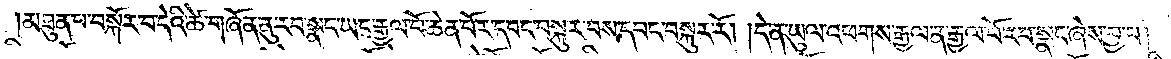མཐུན་པ་བསྐོར་བ་དེའི་ཚེ་གཞོན་ནུ་རབ་སྣང་ཡང་རྒྱལ་པོ་ཆེན་པོར་དབང་བསྐུར་བས་དབང་བསྐུར་རོ། །དེ་ན་ཡུལ་འཕགས་རྒྱལ་ན་རྒྱལ་པོ་རབ་སྣང་ཞེས་བྱ་བ།
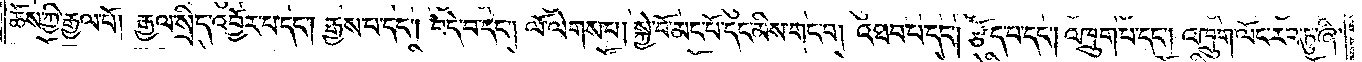ཆོས་ཀྱི་རྒྱལ་པོ། རྒྱལ་སྲིད་འབྱོར་པ་དང༌། རྒྱས་པ་དང༌། བདེ་བ་དང༌། ལོ་ལེགས་པ། སྐྱེ་བོ་མང་པོ་དང་མིས་གང་བ། འཐབ་པ་དང༌། རྩོད་པ་དང༌། འཁྲུག་པ་དང༌། འཁྲུག་ལོང་རབ་ཏུ་ཞི་
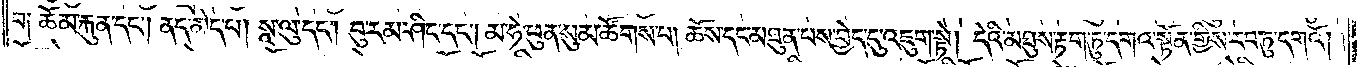བ༑ ཆོམ་རྐུན་དང༌། ནད་མེད་པ། སཱ་ལུ་དང༌། བུ་རམ་ཤིང་དང༌། མ་ཧེ་ཕུན་སུམ་ཚོགས་པ། ཆོས་དང་མཐུན་པས་བྱེད་དུ་འཇུག་སྟེ། དེའི་མཐུས་རྟག་ཏུ་དགའ་སྟོན་གྱིས་རབ་ཏུ་དགའོ། །
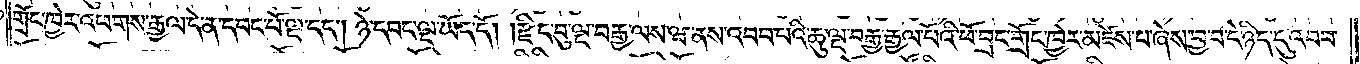གྲོང་ཁྱེར་འཕགས་རྒྱལ་དེ་ན་དབང་པོ་ལྔ་དང༌། ཉེ་དབང་ལྔ་ཡོད་དོ། །རྫིང་བུ་ལྔ་བརྒྱ་ལས་ཝ་ནས་འབབ་པའི་ཆུ་ལྔ་བརྒྱ་རྒྱལ་པོའི་ཕོ་བྲང་གྲོང་ཁྱེར་མཛེས་པ་ཞེས་བྱ་བ་དེ་ཉིད་དུ་འབབ་
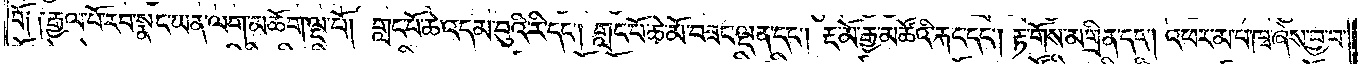བོ༑ ༑རྒྱལ་པོ་རབ་སྣང་ཡན་ལག་མཆོག་ལྔ་པོ། གླང་པོ་ཆེ་འདམ་བུའི་རི་དང༌། གླང་པོ་ཆེ་མོ་བཟང་ལྡན་དང༌། རྔ་མོ་རྒྱ་མཚོའི་རྐང་དང༌། རྟ་གོས་མགྲིན་དང༌། འཕར་མ་པ་ཁྭ་ཞེས་བྱ་བ་
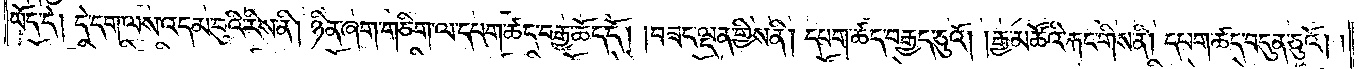ཡོད་དེ། དེ་དག་ལས་འདམ་བུའི་རིས་ནི། ཉིན་ཞག་གཅིག་ལ་དཔག་ཚད་བརྒྱ་ཆོད་དོ། །བཟང་ལྡན་གྱིས་ནི། དཔག་ཚད་བརྒྱད་ཅུའོ། །རྒྱ་མཚོའི་རྐང་གིས་ནི། དཔག་ཚད་བདུན་ཅུའོ། །
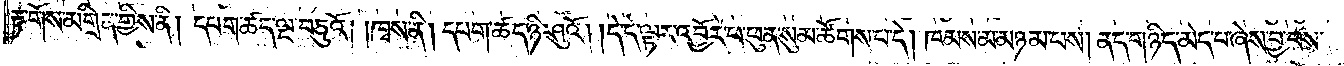རྟ་གོས་མགྲིན་གྱིས་ནི། དཔག་ཚད་ལྔ་བཅུའོ། །ཁྭས་ནི། དཔག་ཚད་ཉི་ཤུའོ། །དེ་དེ་ལྟར་འབྱོར་པ་ཕུན་སུམ་ཚོགས་པ་དེ། ཁམས་མ་མཉམ་པས། ནད་གཉིད་མེད་པ་ཞེས་བྱ་བས་
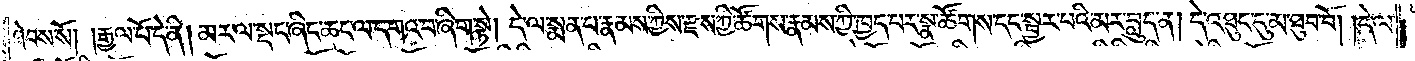ཐེབས་སོ། །རྒྱལ་པོ་དེ་ནི། མར་ལ་སྡང་ཞིང་ཆང་ལ་དགའ་བ་ཞིག་སྟེ། དེ་ལ་སྨན་པ་རྣམས་ཀྱིས་རྫས་ཀྱི་ཚོགས་རྣམས་ཀྱི་ཁྱད་པར་སྣ་ཚོགས་དང་སྦྱར་པའི་མར་བླུད་ན། དེ་འཐུང་དུ་མ་ཐུབ་བོ། །དེ་ལ་
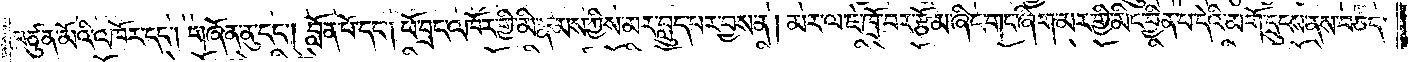བཙུན་མོའི་འཁོར་དང༌། གཞོན་ནུ་དང༌། བློན་པོ་དང༌། ཕོ་བྲང་འཁོར་གྱི་མི་རྣམས་ཀྱིས་མར་བླུད་པར་བྱས་ན། མར་ལ་ཇེ་ཁྲོ་བར་རྩོམ་ཞིང་གང་ཞིག་མར་གྱི་མིང་བྱིན་པ་དེའི་མགོ་དྲུངས་ནས་བཅད་
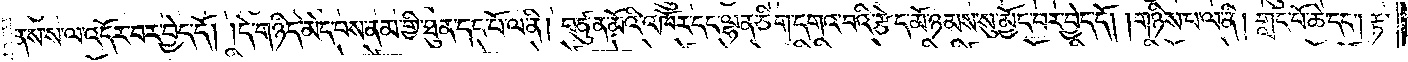ནས་ས་ལ་འདོར་བར་བྱེད་དོ། །དེ་གཉིད་མེད་པས་ནམ་གྱི་ཐུན་དང་པོ་ལ་ནི། བཙུན་མོའི་འཁོར་དང་ལྷན་ཅིག་དགའ་བའི་རྩེད་མོ་ཉམས་སུ་མྱོང་བར་བྱེད་དོ། །གཉིས་པ་ལ་ནི། གླང་པོ་ཆེ་དང༌། རྟ་
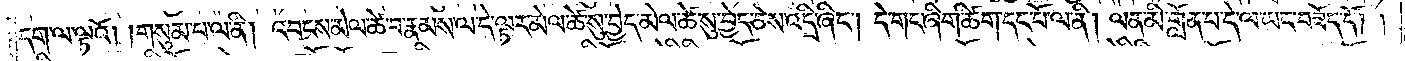དག་ལ་ལྟའོ། །གསུམ་པ་ལ་ནི། འབངས་མེལ་ཚེ་བ་རྣམས་ལ་དེ་ལྟར་མེལ་ཚེ་སུ་བྱེད་མེལ་ཚེ་སུ་བྱེད་ཅེས་འདྲི་ཞིང༌། དེ་གང་ཞིག་ཚིག་དང་པོ་ལ་ནི། ལན་མི་གློན་པ་དེ་ལ་ཡང་བཟོད་དོ། །
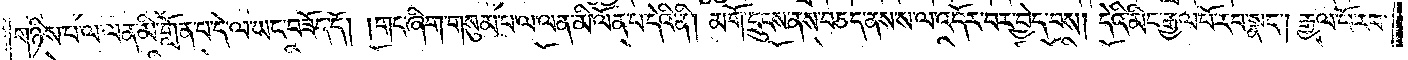གཉིས་པ་ལ་ལན་མི་གློན་པ་དེ་ལ་ཡང་བཟོད་དོ། །གང་ཞིག་གསུམ་པ་ལ་ལན་མི་ལོན་པ་དེའི་ནི། མགོ་དྲུངས་ནས་བཅད་ནས་ས་ལ་འདོར་བར་བྱེད་པས། དེའི་མིང་རྒྱལ་པོ་རབ་སྣང༌། རྒྱལ་པོ་རབ་
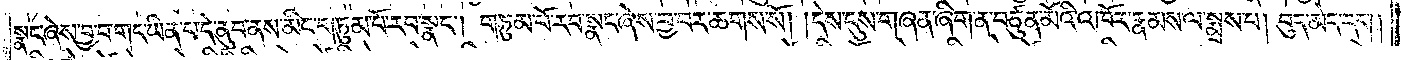སྣང་ཞེས་བྱ་བ་གང་ཡིན་པ་དེ་ནུབ་ནས་མིང་གཏུམ་པོ་རབ་སྣང༌། གཏུམ་པོ་རབ་སྣང་ཞེས་བྱ་བར་ཆགས་སོ། །དེས་དུས་གཞན་ཞིག་ན་བཙུན་མོའི་འཁོར་རྣམས་ལ་སྨྲས་པ། བུད་མེད་དག །
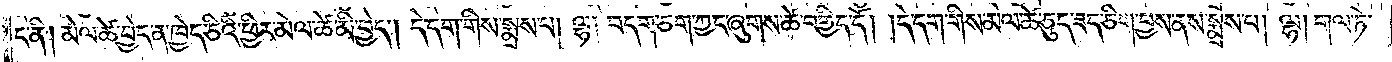ང་ནི། མེལ་ཚེ་བྱེད་ན་ཁྱེད་ཅིའི་ཕྱིར་མེལ་ཚེ་མི་བྱེད། དེ་དག་གིས་སྨྲས་པ། ལྷ། བདག་ཅག་ཀྱང་ཞུགས་ཚེ་བགྱིད་དོ། །དེ་དག་གིས་མེལ་ཚེ་ཅུང་ཟད་ཅིག་བྱས་ནས་སྨྲས་པ། ལྷ། གལ་ཏེ་
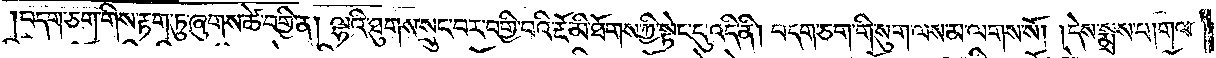བདག་ཅག་གིས་རྟག་ཏུ་ཞུགས་ཚེ་བགྱི་ན། ལྷའི་ཐུགས་སྲུང་བར་བགྱི་བའི་རྔོ་མི་ཐོགས་ཀྱི་སྟེང་དུ་འདི་ནི། བདག་ཅག་གི་སུག་ལས་མ་ལགས་སོ། །དེས་སྨྲས་པ། གལ་
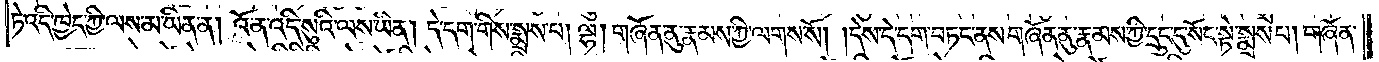ཏེ་འདི་ཁྱེད་ཀྱི་ལས་མ་ཡིན་ན། འོ་ན་འདི་སུའི་ལས་ཡིན། དེ་དག་གིས་སྨྲས་པ། ལྷ། གཞོན་ནུ་རྣམས་ཀྱི་ལགས་སོ། །དེས་དེ་དག་བཏང་ནས་གཞོན་ནུ་རྣམས་ཀྱི་དྲུང་དུ་སོང་སྟེ་སྨྲས་པ། གཞོན་
